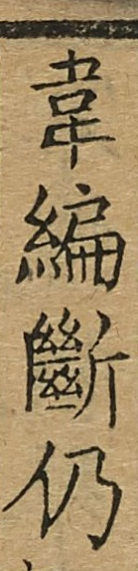韋編斷仍
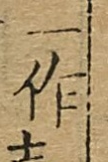一作
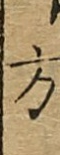方
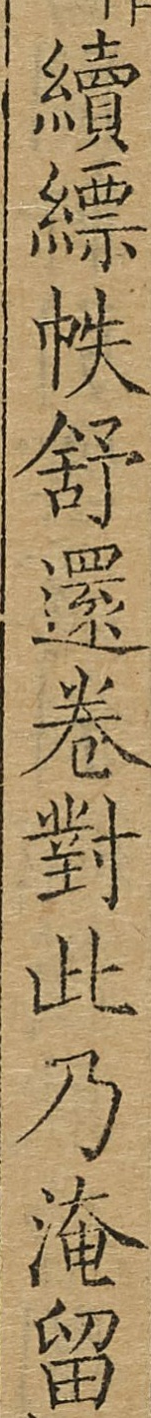續縹帙舒還卷對此乃淹留
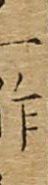一作
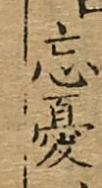忘憂
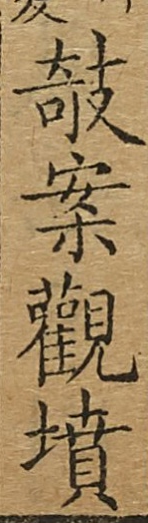欹案觀墳
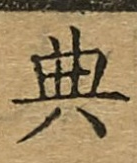典
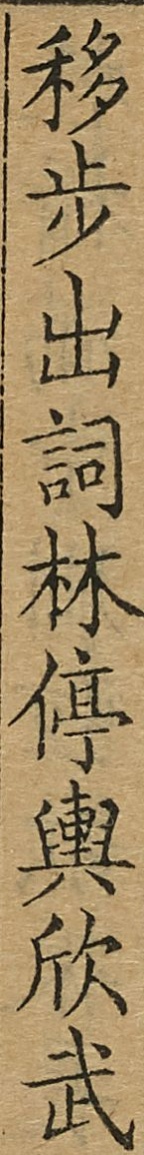移步出詞林停輿欣武
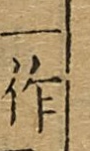一作
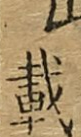載
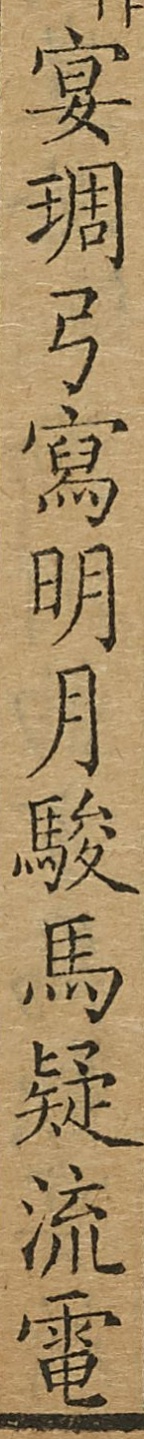宴琱弓寫明月駿馬疑流電
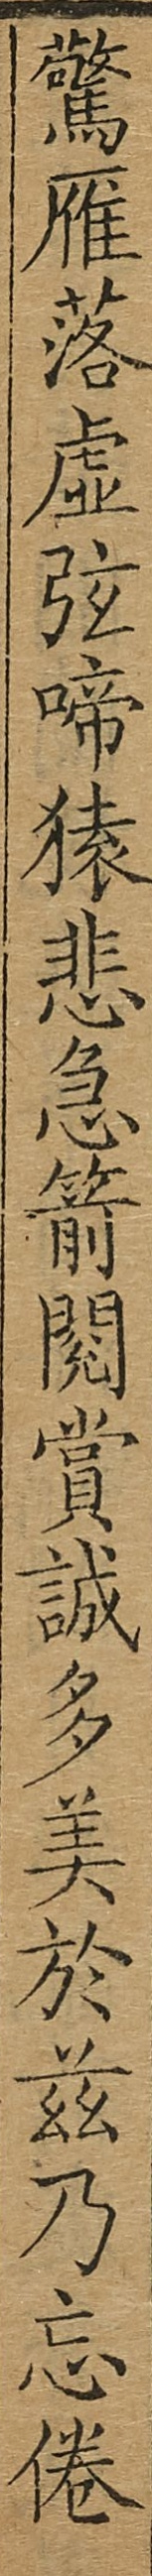驚雁落虛弦啼猿悲急箭閱賞誠多美於茲乃忘倦
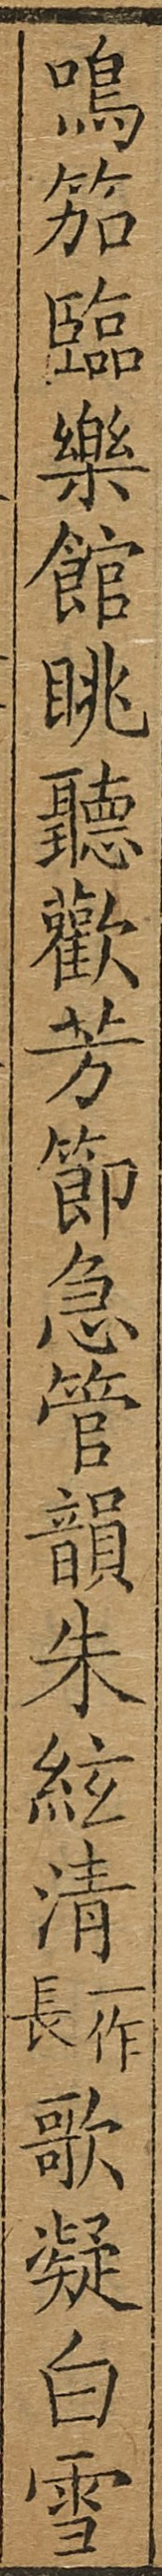鳴笳臨樂館眺聽歡芳節急管韻朱絃清歌凝白雪
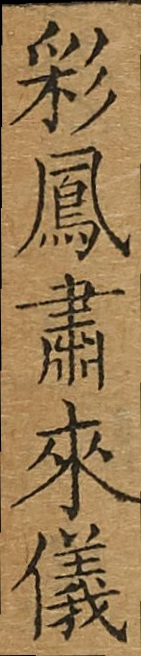彩鳳肅來儀
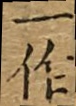一作
